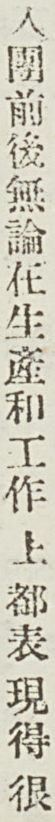入團前後無論在生產和工作上都表現得很
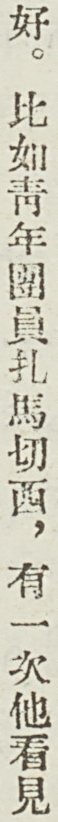好。比如靑年團員扎馬切西，有一次他看見
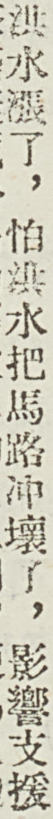洪水漲了，怕洪水把馬路沖壞了，影響支援
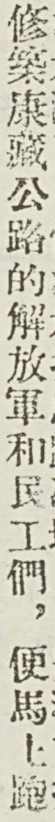修築康藏公路的解放軍和民工們，便馬上跑
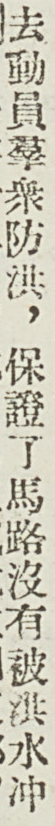去動員羣衆防洪，保證了馬路沒有被洪水沖
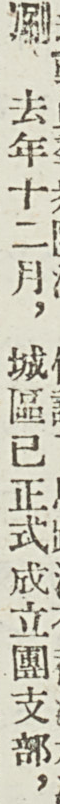涮。去年十二月，城區已正式成立團支部，
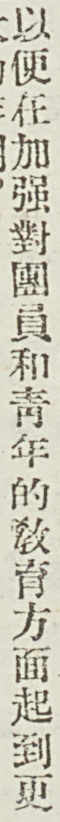以便在加強對團員和靑年的敎育方面起到更
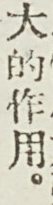大的作用。
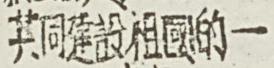共同建設祖國的—
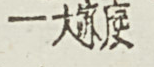—大家庭
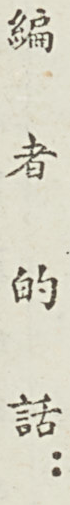編 者 的 話：
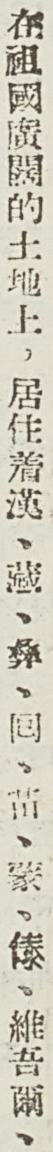在祖國廣闊的土地上，居住者漢、藏、彝、囘、苗、蒙、傣、維吾爾、
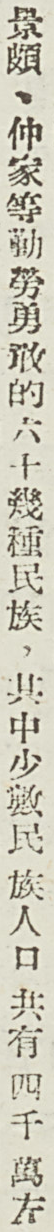景頗、仲家等勤勞勇敢的六十幾種民族，其中少數民族人口共有四千萬左
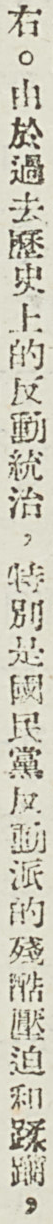右。由於過去歷史上的反動統治，特別是國民黨反動派的殘酷壓迫和蹂躪，
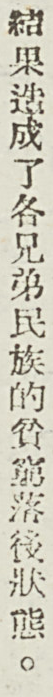結果造成了各兄弟民族的貧窮落後狀態。
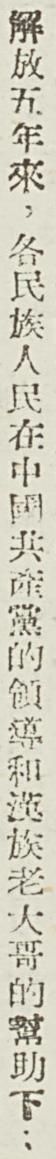解放五年來，各民族人民在中國共產黨的領導和漢族老大哥的幫助下：
